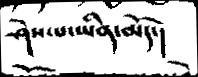ཤེས་པ་ཡིན་མོད་།
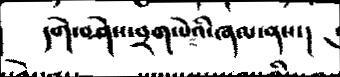དགེ་བཤེས་བྲག་པེའི་ཞལ་ནས་།
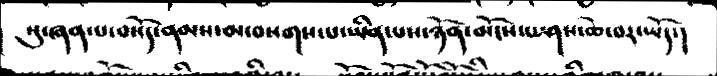སུ་ཞན་པ་བསོད་ནམས་མ་བསགས་པ་ཡིན་པས་ཉོན་མོངས་པ་ཤས་ཆེ་བར་ཡོད་།
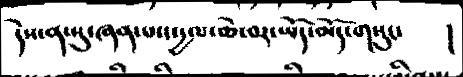དེས་ན་སུ་ཞན་པ་ང་དྱལ་ཆེ་བར་ཡོད་མོད་གསུང་   །
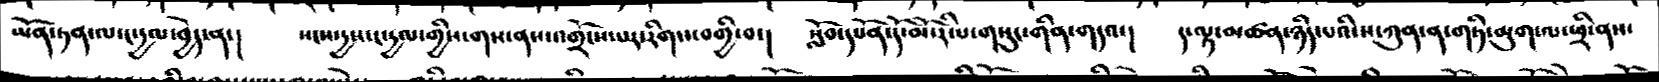ཡོན་ཏན་ལ་ང་དྱལ་བྱེད་ན་།  སངས་དྱས་ང་དྱལ་གྱིས་གས་ནས་འགྲོངས་པར་རིགས་བགྱི་བ་།  སློབ་དཔོན་དོ་མོ་རིལ་གསུང་གིན་གདའ་།  ད་ལྟ་མཚན་ཉིད་པའི་ས་ཀུན་ན་གཏི་མུག་ལ་ཕྲི་ནས་
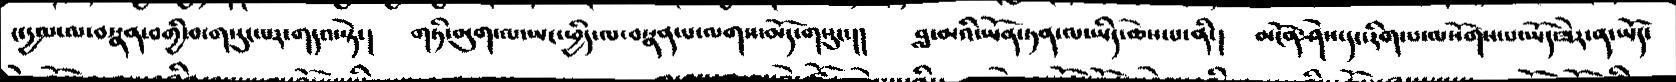ང་དྱལ་ལ་བསྣན་བགྱི་བ་ག་དུང་པར་གདའ་སྟེ་།  གཏི་མུག་ལ་ཡང་ཕྱིད་ལ་བསྣན་པ་ལགས་མོད་གསུང་།།  བླ་མའི་ཡོན་ཏན་ལ་ཡིད་ཆེས་པ་ནི་།  མངོན་ཤེས་དང་རིག་པ་ལསོགས་པ་ཡོད་ཟེར་ན་ཡོད་
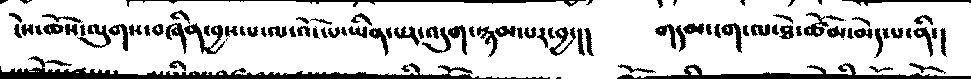ངེས་ཆོས་ལུགས་བཞིན་བྱས་པ་ལ་འོང་པ་ཡིན་པར་འདུག་སྙམ་པར་བྱ་།།  གདམ་ངག་ལ་ཐེ་ཚོམ་མེད་པ་ནི་།
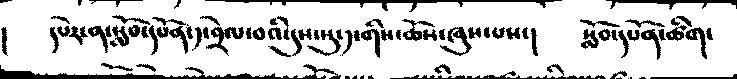།   དཔེར་ན་སློབ་དཔོན་༡་བྲེལ་བའི་དུས་སུ་༡་གིས་ཆོས་ཞུས་པས་།  སློབ་དཔོན་ཚིག་
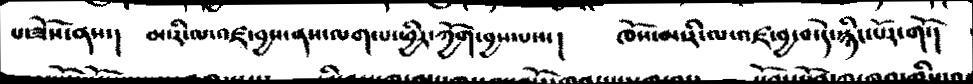པ་ཟོས་ནས་།  མ་རི་ལ་འཛ་བྱས་ནས་ལག་པ་ཕྱིར་ཀྱོག་བྱས་པས་།  ཁོས་མ་རི་ལ་ལ་འཛ་བྱ་བ་དེ་སྙིང་པོར་གོ་།
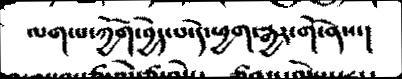ལག་པ་ཀྱོག་བྱེད་པ་དེ་ཕྱག་རྒྱར་གོ་ནས་།
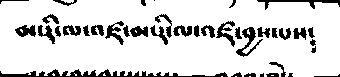མ་རི་ལ་འཛ་མ་རི་ལ་འཛ་བྱས་པས༴
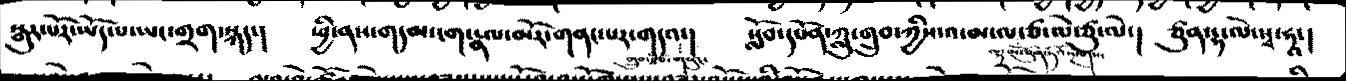སྒུར་པོར་ཡོད་པ་ཡང་གྲག་སྐད་།  ཕྱི་ནས་གདམ་ངག་རྣལ་མོར་གནང་པར་གདའ་།  སློབ་དཔོན་ཀླུ་གྲུབ་ཀྱིས་འ་མ་ལ་ཙ་ལེ་ཙུ་ལེ་།  ཙུན་དྷ་ལེ་སྭ་ཧཱ་།
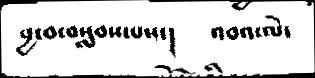བྱ་བ་བསླབས་པས་།  འབའ་ལེ་
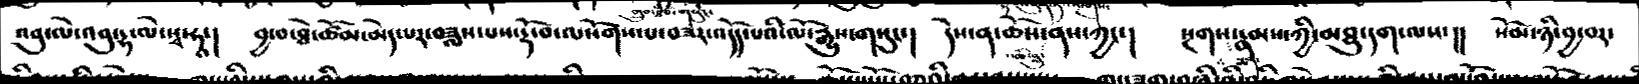འབུ་ལེ་འབུ་དྷ་ལེ་སྭ་ཧཱ་།  བྱ་བ་ཐེ་ཚོམ་མེད་པར་བཟླས་པས་དྷོ་བ་ལསོགས་པ་བཟར་འདོད་པའི་ལོ་རྒྱུས་གསུང་།  དེས་ན་ཆོས་ནས་ཀྱང་།  སྔགས་རྣམས་ཀྱི་མཐུ་དག་ལས་།།  སོམ་ཉི་བྱ་བར་
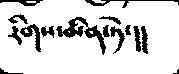རིགས་མིན་ཏེ་།།
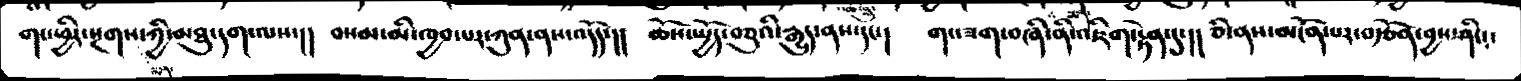གང་ཕྱིར་སྔགས་ཀྱི་མཐུ་དག་ལས་།།  བསམ་མི་ཁྱབ་པར་ཀུན་ནས་འདོད་།།  ཆོས་སྤྱོད་བཅུའི་རྒྱུད་ནས་དང་།  གང་ཟག་བཞི་ནི་འཇིག་རྟེན་དུ་།།  ཅི་ནས་མངོན་པར་བརྩོན་བྱས་ཤིང་
